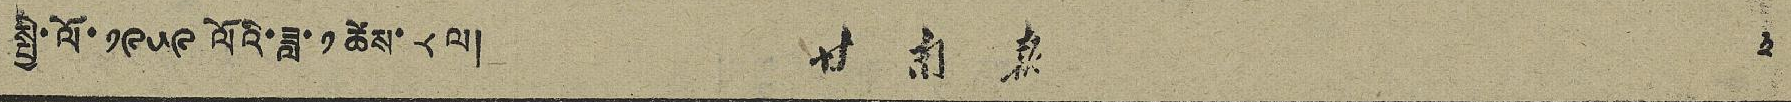སྤྱི་ལོ་ ༡༩༥༩ ལོའི་ཟླ་ ༡ ཚེས་ ༨ ལ། 甘 南 報 ༣
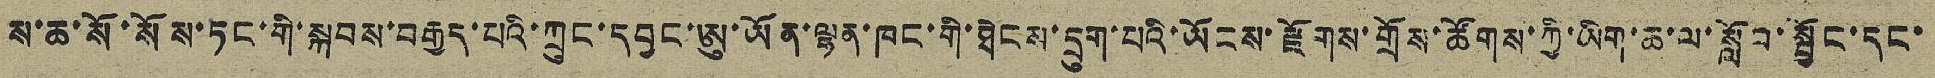ས་ཆ་སོ་སོས་ཏང་གི་སྐབས་བརྒྱད་པའི་ཀྲུང་དབྱང་ཨུ་ཡོན་ལྷན་ཁང་གི་ཐེངས་དྲུག་པའི་ཡོངས་རྫོགས་གྲོས་ཚོགས་ཀྱི་ཡིག་ཆ་ལ་སློབ་སྦྱོང་དང་
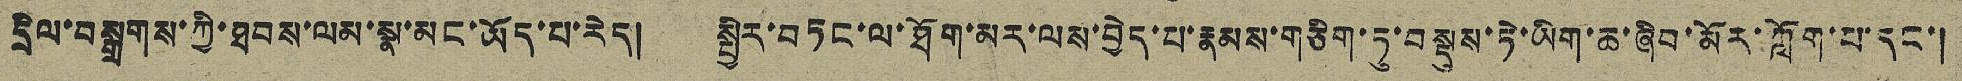དྲིལ་བསྒྲགས་ཀྱི་ཐབས་ལམ་སྣ་མང་ཡོད་པ་རེད། སྤྱིར་བཏང་ལ་ཐོག་མར་ལས་བྱེད་པ་རྣམས་གཅིག་ཏུ་བསྡུས་ཏེ་ཡིག་ཆ་ཞིབ་མོར་ཀློག་པ་དང་།
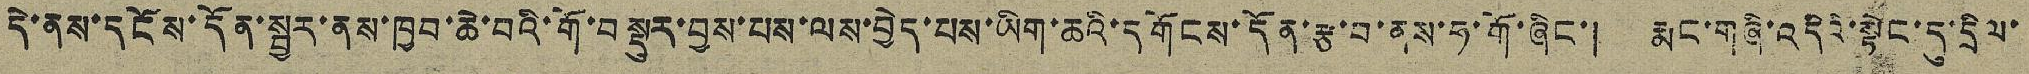དེ་ནས་དངོས་དོན་སྦྱར་ནས་ཁྱབ་ཆེ་བའི་གོ་བསྡུར་བྱས་པས་ལས་བྱེད་པས་ཡིག་ཆའི་དགོངས་དོན་རྩ་བ་ནས་ཧ་གོ་ཞིང་། རྨང་གཞི་འདིའི་སྟེང་དུ་དྲིལ་
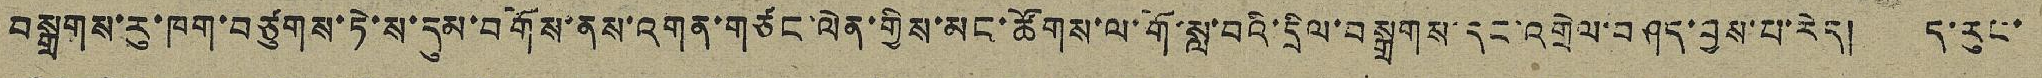བསྒྲགས་རུ་ཁག་བཙུགས་ཏེ་ས་དུམ་བགོས་ནས་འགན་གཙང་ལེན་གྱིས་མང་ཚོགས་ལ་གོ་སླ་བའི་དྲིལ་བསྒྲགས་དང་འགྲེལ་བཤད་བྱས་པ་རེད། ད་རུང་
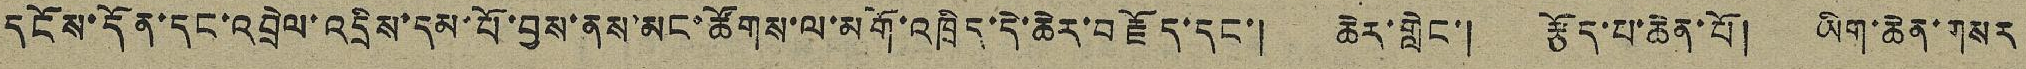དངོས་དོན་དང་འབྲེལ་འདྲིས་དམ་པོ་བྱས་ནས་མང་ཚོགས་ལ་མགོ་འཁྲིད་དེ་ཆེར་བརྫོད་དང་། ཆེར་གླེང་། རྩོད་པ་ཆེན་པོ། ཡིག་ཆེན་གསར
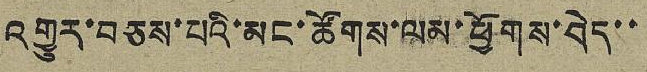འགྱུར་བཅས་པའི་མང་ཚོགས་ལམ་ཕྱོགས་བེད་་
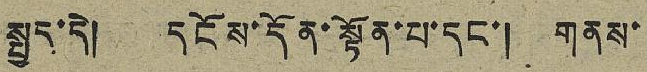སྤྱད་དེ། དངོས་དོན་སྟོན་པ་དང་། གནས་
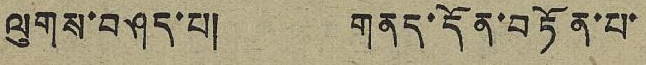ལུགས་བཤད་པ། གནད་དོན་བཏོན་པ་
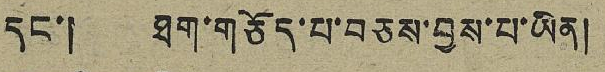དང་། ཐག་གཅོད་པ་བཅས་བྱས་པ་ཡིན།
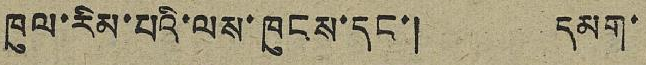ཁུལ་རིམ་པའི་ལས་ཁུངས་དང་། དམག་
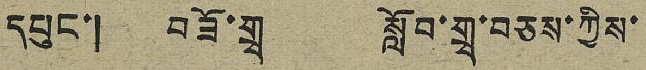དཔུང་། བཟོ་གྲྭ སློབ་གྲྭ་བཅས་ཀྱིས་
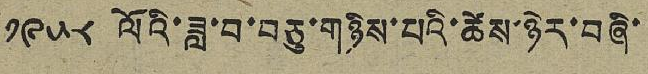༡༩༥༨ ལོའི་ཟླ་བ་བཅུ་གཉིས་པའི་ཚེས་ཉེར་བཞི་
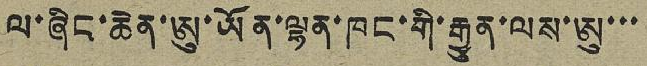ལ་ཞིང་ཆེན་ཨུ་ཡོན་ལྷན་ཁང་གི་རྒྱུན་ལས་ཨུ་་་
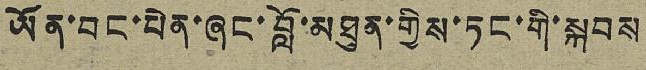ཡོན་བང་པེན་ཞང་བློ་མཐུན་གྱིས་ཏང་གི་སྐབས
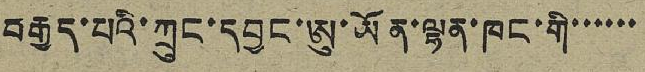བརྒྱད་པའི་ཀྲུང་དབྱང་ཨུ་ཡོན་ལྷན་ཁང་གི་་་་་་
